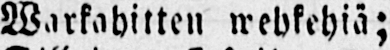Warkahitten wehkehiä;
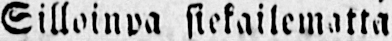Silloinpa siekailematta
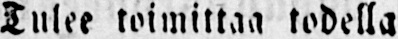Tulee toimittaa todella
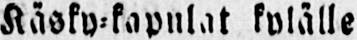Käsky-kapnlat kylälle
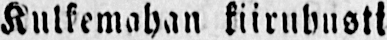Kulkemahan kiiruhusti
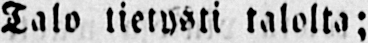Talo tietysti talolta;
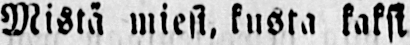Mistä miesi, kusta kaksi
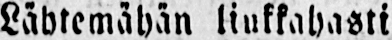Lähtemähän liukkahasti
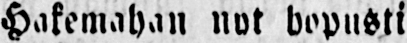Hakemahan nyt hopusti
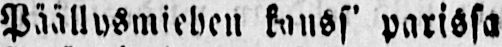Päällysmiehen kauss' parissa
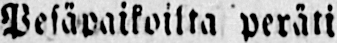Pesäpaikoilta peräti
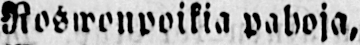Roswonpoikia pahoja,
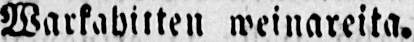Warkahitten weinareita.
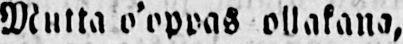Mutta o'oppas ollakana,
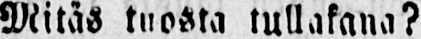Mitäs tuosta tullakana?
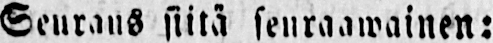Seuraus siitä senraawainen:
